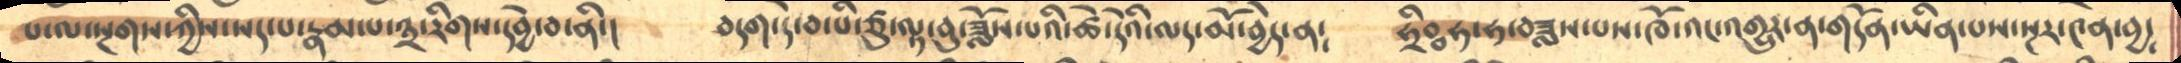པ་ལ་སྔགས་ཀྱིས་སད་པ་རྣམ་པ་༣་རིགས་དབྱེ་བ་ནི་།   བདག་དེ་བ་པི་ཙུ་ལྟ་བུ་ཟློས་པའི་ཚེ་དེའི་ལད་མོ་བྱེད་ན་    ཧྲིཿ  ཧ་ཧ་བཟླས་པས་ཁོ་འང་འགྱུར་ན་གདོན་ཡིན་པས་སྔར་༤ན་བྱ༴
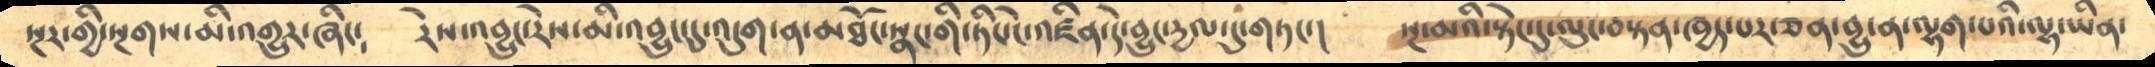སྔར་གྱི་སྔགས་མི་འགྱུར་ཞིང༴    རེས་འབྱུང་རེས་མི་འབྱུང་དུ་འདུག་ན་མཐོང་སྣང་གི་ཏིང་ངེ་འཛིན་དེ་བྱུང་དྱལ་དུ་གཏང་།    སྔ་མའི་སྟེང་དུ་ལུང་བསྟན་ཁྱད་པར་ཅན་བྱུ་ན་ལྷག་པའི་ལྷ་ཡིན་
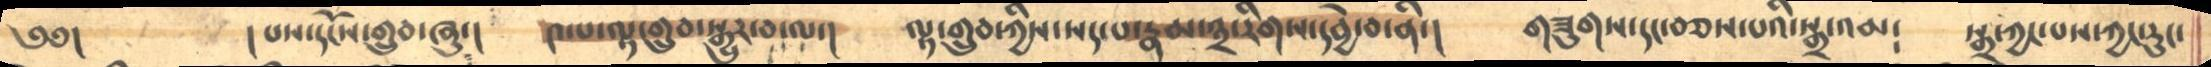༄༅།       །པས་དངོས་གྲུབ་ཞུ་།   ༤་པ་ལྟ་གྲུབ་སྒྱུར་བ་ལ་།   ལྟ་གྲུབ་ཀྱིས་སད་པ་རྣམ་༣་རིགས་དབྱེ་བ་ནི་།   གཟུགས་དང་བཅས་པའི་སྒྲ་འམ༴   སྒྲ་ཀྱང་པས་ཀྱང་རུང་
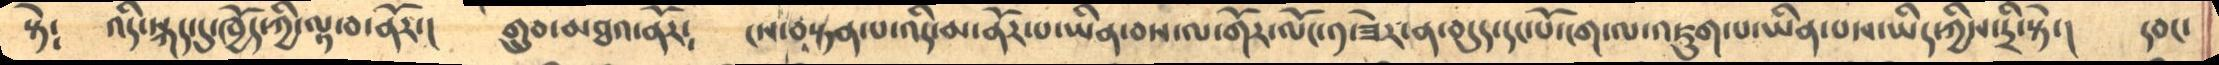སྟེ༴    འདི་སྐད་དུ་ཁྱོད་ཀྱི་ལྟ་བ་ནོར་།   གྲུབ་མཐའ་ནོར༴     ངས་བསྟན་པ་འདི་མ་ནོར་པ་ཡིན་བས་ལ་གོར་ལོང་༡་ཟེར་ན་བདུད་དང་པོ་ངག་ལ་འཇུག་པ་ཡིན་པས་ཡིད་ཀྱིས་དྲི་སྟེ་།    དབང་
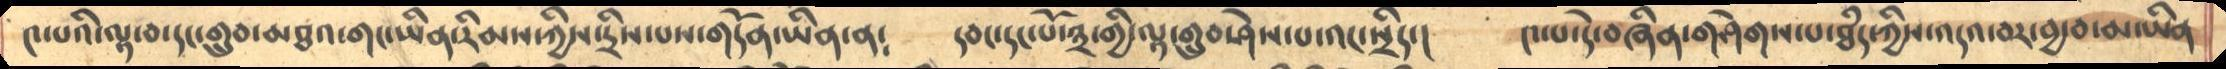༤་པའི་ལྟ་བ་དང་གྲུབ་མཐའ་གང་ཡིན་རིམས་ཀྱིས་དྲིས་པས་གདོན་ཡིན་ན་    དབང་དང་པོ་༣་གྱི་ལྟ་གྲུབ་ཤེས་པ་འང་སྲིད་།    ༤་པ་དེ་བཞིན་གཤེགས་པ་ཐཾད་ཀྱིས་འདའ་བར་བྱ་བ་མ་ཡིན
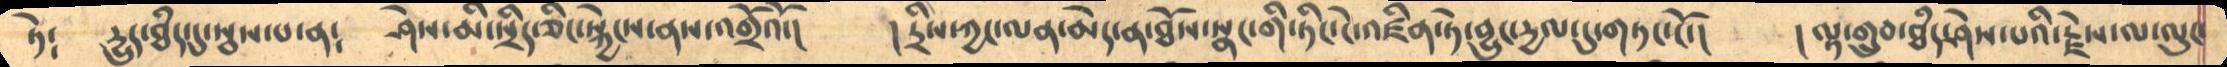ཏེ༴     དྱུད་ཐཾད་དུ་སྦས་པ་ན༴    ཤེས་མི་སྲིད་ཅིང་སྐྱེངས་ནས་འགྲོའོ་།   །དྲིས་ཀྱང་ལན་མེད་ན་ཐོས་སྣང་གི་ཏིང་ངེ་འཛིན་ཏེ་བྱུང་དྱལ་དུ་གཏང་ངོ་།   །ལྟ་གྲུབ་ཐཾད་ཤེས་པའི་རྗེས་ལ་ལུང་
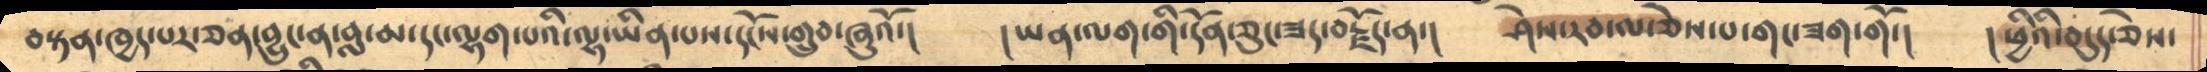བསྟན་ཁྱད་པར་ཅན་བྱུང་ན་བླ་མ་དང་ལྷག་པའི་ལྷ་ཡིན་པས་དངོས་གྲུབ་ཞུའོ་།     །ཡན་ལག་གི་དོན་ཅུང་ཟད་བརྗོད་ན་།   ཤེས་རབ་ལ་ཅེས་པ་གང་ཟག་གོ་།    །ཕྱིའི་བདུད་ཅེས་
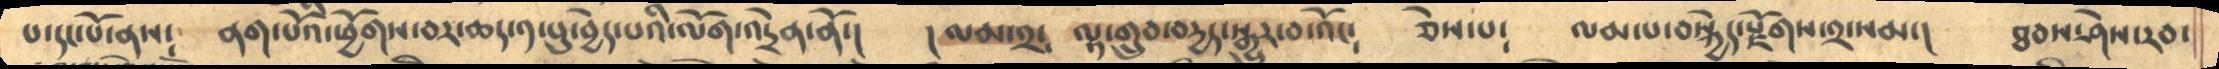པ་དང་པོ་ནས༴     ནག་པོའི་ཕྱོགས་བར་ཆད་༡་པུ་བྱེད་པའི་ལོག་འདྲེན་ནོ་།   །ལམ་༢༴   ལྟ་གྲུབ་བདྱད་སྒྱུར་བ་འོང༴   ཅེས་པ༴  ལམ་པ་བསྐྱེད་རྫོགས་༢་སམ་།   ཐབས་ཤེས་རབ་
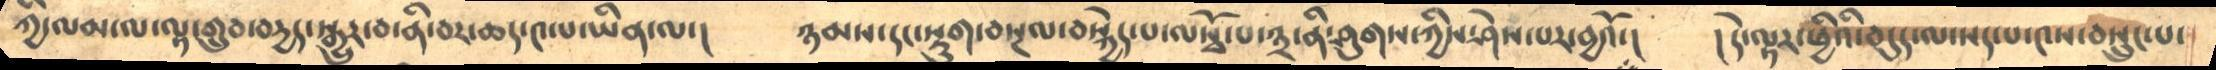ཀྱི་ལམ་ལ་ལྟ་གྲུབ་བདྱད་སྒྱུར་བ་ནི་བར་ཆད་༤་པ་ཡིན་ལ་།    ཉམས་དང་སྡུག་བསྔལ་བསྐྱེད་པ་ལསྭོ་པ་༣་ནི་ཤུགས་ཀྱིས་ཤེས་པར་བྱའོ་།    །དེ་ལྟར་ཕྱིའི་བདུད་ལ་སད་པ་༤ས་བསྲུང་པ་
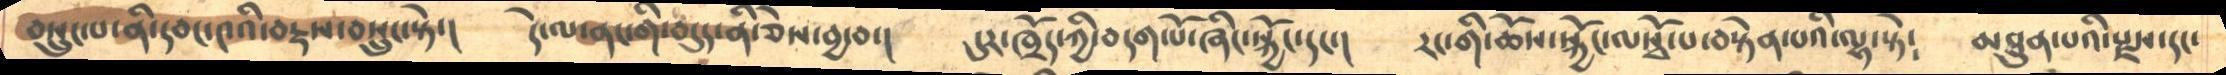བསྲུང་པ་ནི་དབང་༤འི་བརྡས་བསྲུང་སྟེ་།    དེ་ལ་ནང་གི་བདུད་ནི་ཅེས་བྱ་བ་།    དུར་ཁྲོད་ཀྱི་བདག་པོ་ཞིང་སྐྱོང་དང་།    རང་གི་ཆོས་སྐྱོང་ལསྭོ་པ་བསྟེན་པའི་ལྷ་སྟེ༴   མཐུན་པའི་རྫས་དང་
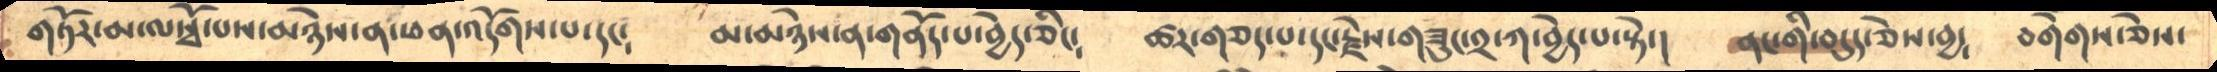གཏོར་མ་ལསྭོ་པས་མཉེས་ན་ཕན་འདོགས་པ་དང༴    མ་མཉེས་ན་གནོད་པ་བྱེད་ཅིང༴   ཚར་གཅད་པ་དང་རྗེས་གཟུང་༢་ཀ་བྱེད་པ་སྟེ་།   ནང་གི་བདུད་ཅེས་བྱ༴   བགེགས་ཅེས་
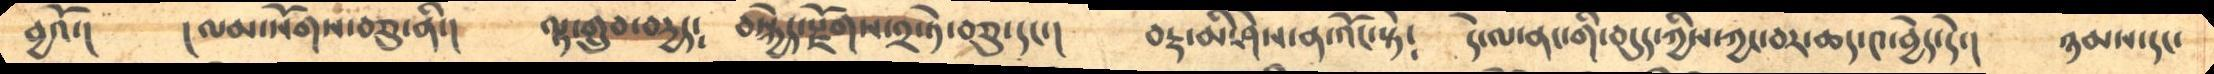བྱའོ་།    །ལམ་སོགས་བཅུ་ནི་།    ལྟ་གྲུབ་བདྱད༴   བསྐྱེད་སྫོགས་༢་ཏེ་བཅུ་དང་།     བརྡ་མི་ཤེས་ན་འོང་སྟེ༴   དེ་ལ་ནང་གི་བདུད་ཀྱིས་ཀྱང་བར་ཆད་༤་བྱེད་དེ་།  ཉམས་དང་
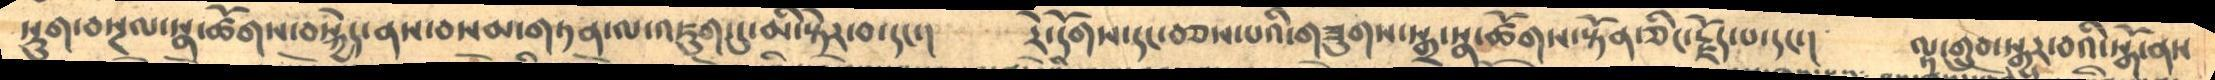སྡུག་བསྔལ་སྣ་ཚོགས་བསྐྱེད་ནས་བསམ་གཏན་ལ་འཇུག་དུ་མི་སྟེར་བ་དང་།     རེ་དོགས་དང་བཅས་པའི་གཟུགས་སྒྲ་སྣ་ཚོགས་སྟོན་ཅིང་རྗོད་པ་དང་།     ལྟ་གྲུབ་སྒྱུར་བའི་སྒོ་ནས
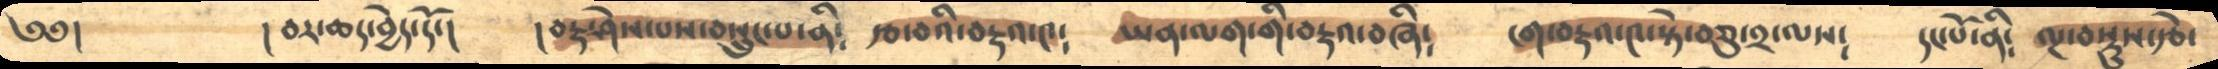༄༅།          །བར་ཆད་བྱེད་དོ་།    །བརྡ་ཤེས་པས་བསྲུང་པ་ནི༴   རྩ་བའི་བརྡའ་༤༴   ཡན་ལག་གི་བརྡ་བཞི༴     ངག་བརྡའ་༤་སྟེ་བཅུ་༢་ལས༴     དང་པོ་ནི༴  ལྔ་བསྡུས་རྩེ་
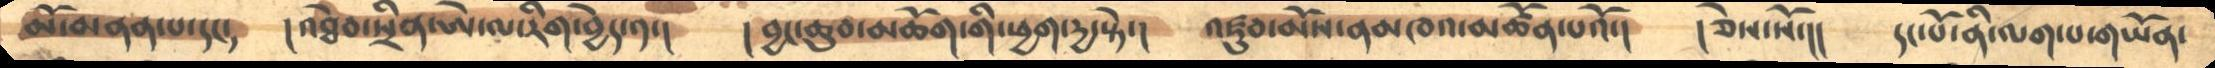མོ་བ་ནན་པ་དང་།   །འཐེབ་སྲིན་ཨེ་ལ་རིག་བྱེད་༡་།    །བྱང་ཆུབ་མཆོག་གི་ཕྱག་དྱ་སྟེ་།   འཛུབ་མོས་ནམཁའ་མཚོན་པའོ་།     །ཅེས་སོ་།།      དང་པོ་ནི་ལག་པ་གཡོན་
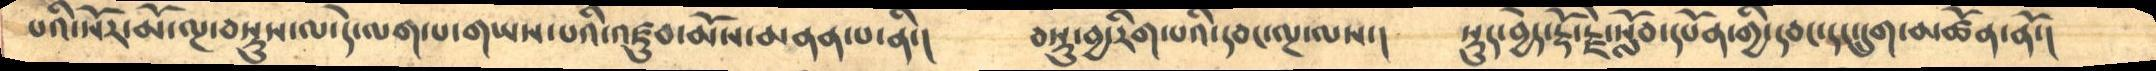པའི་སོར་མོ་ལྔ་བསྡུས་ལ་དེ་ལག་པ་གཡས་པའི་འཛུབ་མོས་མནན་པ་ནི་།      བསྡུ་བྱ་རིག་པའི་དབང་ལྔ་ལས་།   སྡུད་བྱེད་རྡོ་རྗེ་སློབ་དཔོན་གྱི་དབང་དང་དྲུག་མཚོན་ནོ་།
